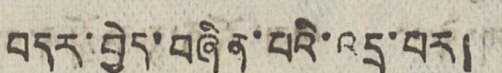བདར་བྱེད་བཞིན་པའི་འདྲ་པར།
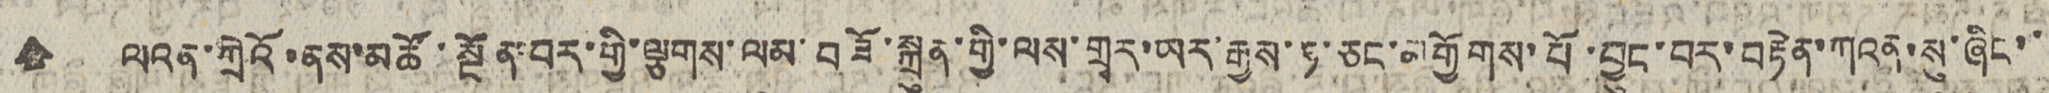🠹 ལའན་ཀྲེའོ་ནས་མཚོ་སྔོན་བར་གྱི་ལྕགས་ལམ་བཟོ་སྐྲུན་གྱི་ལས་གྲྭར་ཡར་རྒྱས་ཧ་ཅང་མགྱོགས་པོ་བྱུང་བར་བརྟེན་ཀའན་སུ་ཞིང་་
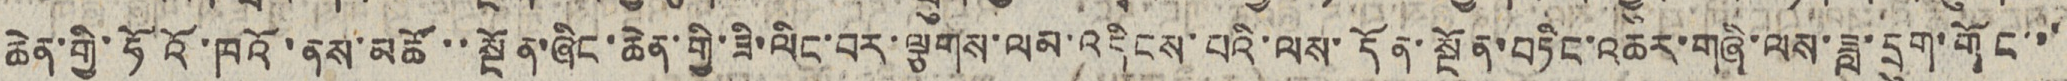ཆེན་གྱི་ཧོའོ་ཁའོ་ནས་མཚོ་་སྔོན་ཞིང་ཆེན་གྱི་ཟི་ལིང་བར་ལྕགས་ལམ་འདིངས་པའི་ལས་དོན་སྔོན་བཏིང་འཆར་གཞི་ལས་ཟླ་དྲུག་གོང་་་
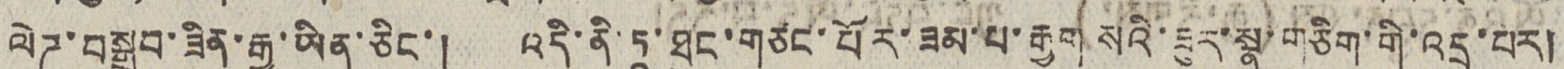ལེཊ་བསྒྲུབ་ཟིན་རྒྱུ་ཡིན་ཅིང་། འདི་ནི་ཏཱ་ཐུང་གཙང་པོར་ཟམ་པ་རྒྱག་སའི་ཟུར་སྣ་གཅིག་གི་འདྲ་པར།
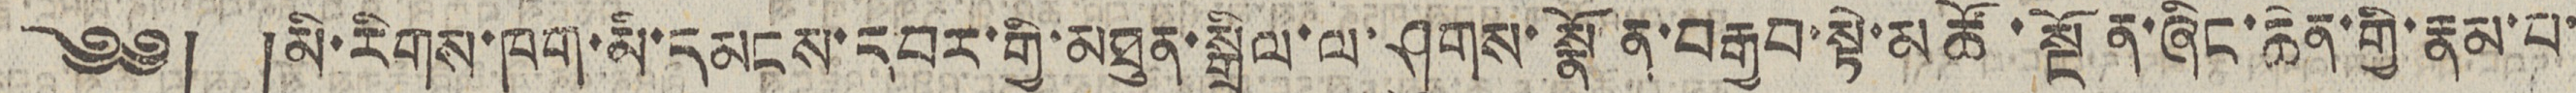༄༅། །མི་རིགས་ཁག་མི་དམངས་དབར་གྱི་མཐུན་སྒྲིལ་ལ་ཤུགས་སྣོན་བརྒྱབ་སྟེ་མཚོ་སྔོན་ཞིང་ཆེན་གྱི་རྣམ་པ་
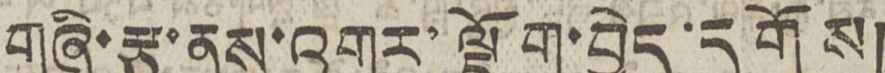གཞི་རྩ་ནས་འགྱུར་ལྡོག་བྱེད་དགོས།
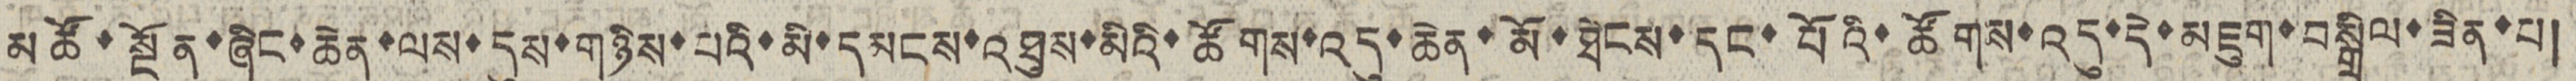མཚོ་སྔོན་ཞིང་ཆེན་ལས་དུས་གཉིས་པའི་མི་དམངས་འཐུས་མིའི་ཚོགས་འདུ་ཆེན་མོ་ཐེངས་དང་པོའི་ཚོགས་འདུ་དེ་མཇུག་བསྒྲིལ་ཟིན་པ།
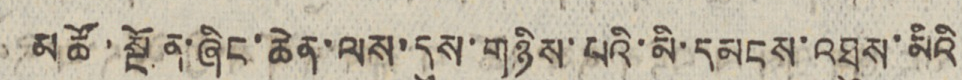མཚོ་སྔོན་ཞིང་ཆེན་ལས་དུས་གཉིས་པའི་མི་དམངས་འཐུས་མིའི
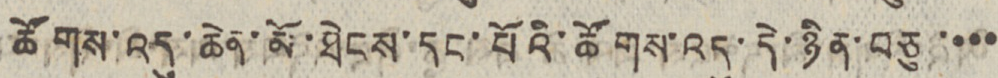ཚོགས་འདུ་ཆེན་མོ་ཐེངས་དང་པོའི་ཚོགས་འདུ་དེ་ཉིན་བཅུ་་་་
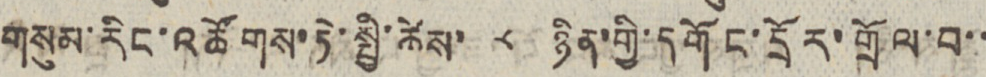གསུམ་རིང་འཚོགས་ཏེ་སྤྱི་ཚེས་ ༨ ཉིན་གྱི་དགོང་དྲོར་གྲོལ་བ་་
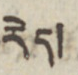རེད།
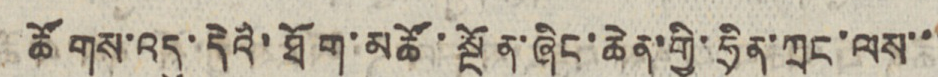ཚོགས་འདུ་དེའི་ཐོག་མཚོ་སྔོན་ཞིང་ཆེན་གྱི་ཧྲིན་ཀྲང་ལས་་་
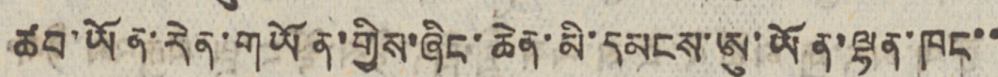ཚབ་ཡོན་རེན་གཡོན་གྱིས་ཞིང་ཆེན་མི་དམངས་ཨུ་ཡོན་ལྷན་ཁང་་
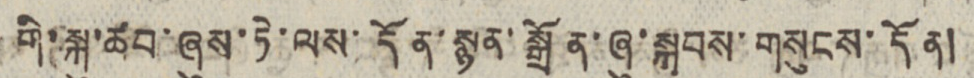གི་སྐུ་ཚབ་ཞུས་ཏེ་ལས་དོན་སྙན་སྒྲོན་ཞུ་སྐབས་གསུངས་དོན།
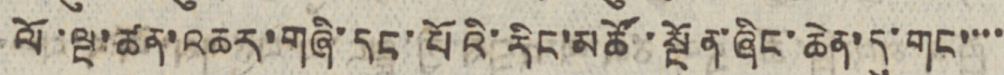ལོ་ལྔ་ཚན་འཆར་གཞི་དང་པོའི་རིང་མཚོ་སྔོན་ཞིང་ཆེན་དུ་གང་་་་
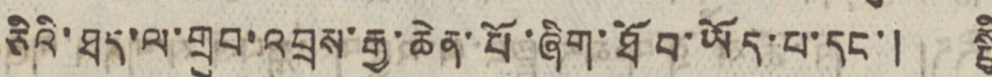ཅིའི་ཐད་ལ་གྲུབ་འབྲས་རྒྱ་ཆེན་པོ་ཞིག་ཐོབ་ཡོད་པ་དང་། སྤྱི
